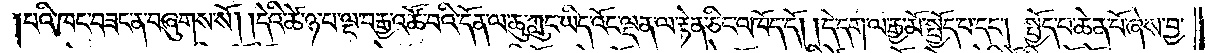པའི་ཁང་བཟང་ན་བཞུགས་སོ། །དེའི་ཚེ་ཉ་པ་ལྔ་བརྒྱ་འཚོ་བའི་དོན་ལ་ཆུ་ཀླུང་ཡིད་འོང་ལྡན་ལ་རྟེན་ཅིང་འཁོད་དོ། །དེ་དག་ལ་རྒྱ་མོ་སྤྱོད་པ་དང༌། སྤྱོད་པ་ཆེན་པོ་ཞེས་བྱ་
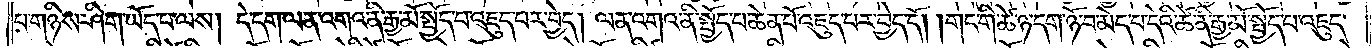བ་གཉིས་ཤིག་ཡོད་པ་ལས། དེ་དག་ལན་འགའ་ནི་རྒྱ་མོ་སྤྱོད་པ་འཇུད་པར་བྱེད། ལན་འགའ་ནི་སྤྱོད་པ་ཆེན་པོ་འཇུད་པར་བྱེད་དོ། །གང་གི་ཚེ་ཉ་དག་ཉོ་བ་མེད་པ་དེའི་ཚེ་ནི་རྒྱ་མོ་སྤྱོད་པ་འཇུད་
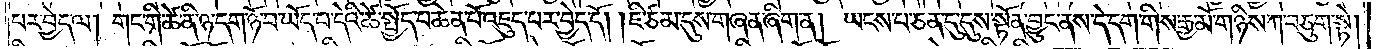པར་བྱེད་ལ། གང་གི་ཚེ་ནི་ཉ་དག་ཉོ་བ་ཡོད་པ་དེའི་ཚེ་སྤྱོད་པ་ཆེན་པོ་འཇུད་པར་བྱེད་དོ། །ཇི་ཙམ་དུས་གཞན་ཞིག་ན། ཡངས་པ་ཅན་དུ་དུས་སྟོན་བྱུང་ནས་དེ་དག་གིས་རྒྱ་མོ་གཉིས་ཀ་བཅུག་སྟེ།
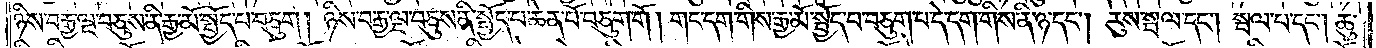ཉིས་བརྒྱ་ལྔ་བཅུས་ནི་རྒྱ་མོ་སྤྱོད་པ་བཅུག །ཉིས་བརྒྱ་ལྔ་བཅུས་ནི་སྤྱོད་པ་ཆེན་པོ་བཅུག་གོ །གང་དག་གིས་རྒྱ་མོ་སྤྱོད་པ་བཅུག་པ་དེ་དག་གིས་ནི་ཉ་དང༌། རུས་སྦལ་དང༌། སྦལ་པ་དང༌། ཆུ་
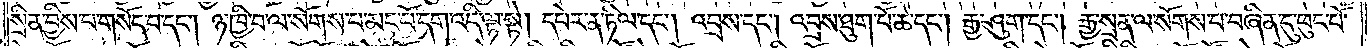སྲིན་བྱིས་པ་གསོད་པ་དང༌། ཉ་ཁྱི་བ་ལ་སོགས་པ་མང་པོ་དག་འདི་ལྟ་སྟེ། དཔེར་ན་ཏིལ་དང༌། འབྲས་དང༌། འབྲས་བུ་ཐུག་པོ་ཆེ་དང༌། རྒྱ་ཤུག་དང༌། རྒྱ་སྲན་ལ་སོགས་པ་བཞིན་དུ་ཕུང་པོ་
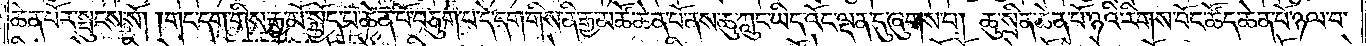ཆེན་པོར་སྤུངས་སོ། །གང་དག་གིས་རྒྱ་མོ་སྤྱོད་པ་ཆེན་པོ་བཅུག་པ་དེ་དག་གིས་ནི་རྒྱ་མཚོ་ཆེན་པོ་ནས་ཆུ་ཀླུང་ཡིད་འོང་ལྡན་དུ་ཞུགས་པ། ཆུ་སྲིན་ཆེན་པོ་ཉའི་རིགས་བོང་ཚོད་ཆེན་པོ་ཉལ་བ་
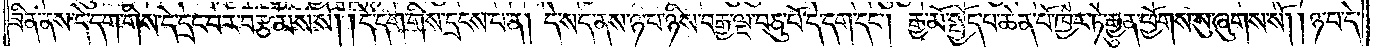ཟིན་ནས་དེ་དག་གིས་དེ་དྲང་བར་བརྩམས་སོ། །དེ་དག་གིས་དྲངས་པ་ན། དེ་སད་ནས་ཉ་པ་ཉིས་བརྒྱ་ལྔ་བཅུ་པོ་དེ་དག་དང༌། རྒྱ་མོ་སྤྱོད་པ་ཆེན་པོ་ཁྱེར་ཏེ་རྒྱུན་ཕྱོགས་སུ་ཞུགས་སོ། །ཉ་པ་དེ་
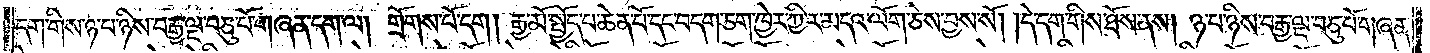དག་གིས་ཉ་པ་ཉིས་བརྒྱ་ལྔ་བཅུ་པོ་གཞན་དག་ལ། གྲོགས་པོ་དག །རྒྱ་མོ་སྤྱོད་པ་ཆེན་པོ་དང་བདག་ཅག་ཁྱེར་གྱི་ར་མདའ་ལོག་ཅེས་བྱས་སོ། །དེ་དག་གིས་ཐོས་ནས། ཉ་པ་ཉིས་བརྒྱ་ལྔ་བཅུ་པོ་གཞན་
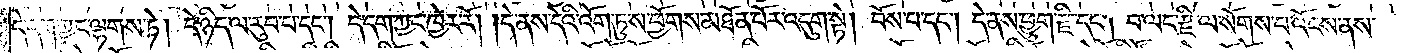དེ་དག་ཀྱང་ལྷགས་ཏེ། དེ་ཉིད་ལ་རུབ་པ་དང༌། དེ་དག་ཀྱང་ཁྱེར་རོ། །དེ་ནས་དེའི་འོག་ཏུ་ས་ཕྱོགས་མཐོན་པོར་འདུག་སྟེ། བོས་པ་དང༌། དེ་ནས་ཕྱུག་རྫི་དང༌། བ་ལང་རྫི་ལ་སོགས་པ་འོངས་ནས་
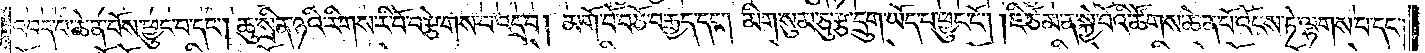འབད་པ་ཆེན་པོས་ཕྱུང་བ་དང༌། ཆུ་སྲིན་ཉའི་རིགས་རི་བོ་བརྩེགས་པ་འདྲ་བ། མགོ་བོ་བཅོ་བརྒྱད་དང༌། མིག་སུམ་ཅུ་རྩ་དྲུག་ཡོད་པ་ཕྱུང་ངོ༌། །ཇི་ཙམ་ན་སྐྱེ་བོའི་ཚོགས་ཆེན་པོ་འོངས་ཏེ་ལྷགས་པ་དང༌།
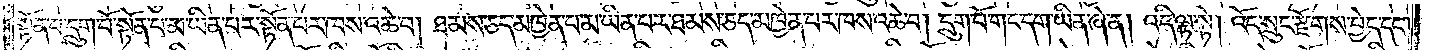སྟོན་པ་དྲུག་པོ་སྟོན་པ་མ་ཡིན་པར་སྟོན་པར་ཁས་འཆེ་བ། ཐམས་ཅད་མཁྱེན་པ་མ་ཡིན་པར་ཐམས་ཅད་མཁྱེན་པར་ཁས་འཆེ་བ། དྲུག་པོ་གང་དག་ཡིན་ཞེ་ན། འདི་ལྟ་སྟེ། འོད་སྲུང་རྫོགས་བྱེད་དང༌།
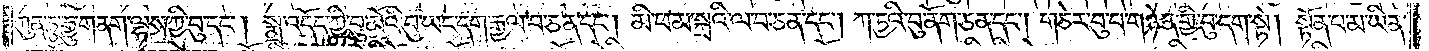ཀུན་ཏུ་རྒྱུ་གནག་ལྷས་ཀྱི་བུ་དང༌། སྨྲ་འདོད་ཀྱི་བུ་མོའི་བུ་ཡང་དག་རྒྱལ་བ་ཅན་དང༌། མི་ཕམ་སྐྲའི་ལ་བ་ཅན་དང༌། ཀ་ཏྱའི་བུ་ནོག་ཅན་དང༌། གཅེར་བུ་པ་གཉེན་གྱི་བུ་དག་སྟེ། སྟོན་པ་མ་ཡིན་
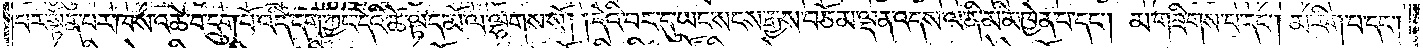པར་སྟོན་པར་ཁས་འཆེ་བ་དྲུག་པོ་འདི་དག་ཀྱང་དེའི་ཚེ་ལྟད་མོ་ལ་ལྷགས་སོ། །དེའི་བར་དུ་ཡང་སངས་རྒྱས་བཅོམ་ལྡན་འདས་ལ་ནི་མི་མཁྱེན་པ་དང༌། མ་གཟིགས་པ་དང༌། མ་རིག་པ་དང༌།
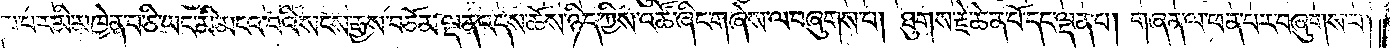རྣམ་པར་མི་མཁྱེན་པ་ཅི་ཡང་མི་མངའ་བའི་སངས་རྒྱས་བཅོམ་ལྡན་འདས་ཆོས་ཉིད་ཀྱིས་འཚོ་ཞིང་གཞེས་ལ་བཞུགས་པ། ཐུགས་རྗེ་ཆེན་པོ་དང་ལྡན་པ། གཞན་ལ་ཕན་པར་བཞུགས་པ།
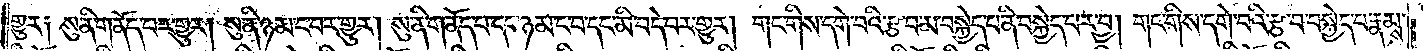གྱུར༑ སུ་ནི་གནོད་པར་གྱུར། སུ་ནི་ཉམ་ང་བར་གྱུར། སུ་ནི་གནོད་པ་དང་ཉམ་ང་བ་དང་མི་བདེ་བར་གྱུར། གང་གིས་དགེ་བའི་རྩ་བ་མ་བསྐྱེད་པ་ནི་བསྐྱེད་པར་བྱ། གང་གིས་དགེ་བའི་རྩ་བ་བསྐྱེད་པ་རྣམས་
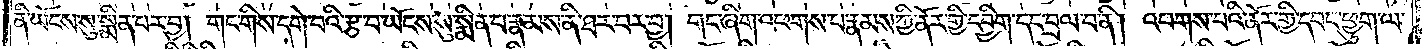ནི་ཡོངས་སུ་སྨིན་པར་བྱ། གང་གིས་དགེ་བའི་རྩ་བ་ཡོངས་སུ་སྨིན་པ་རྣམས་ནི་ཐར་བར་བྱ། གང་ཞིག་འཕགས་པ་རྣམས་ཀྱི་ནོར་གྱི་དབྱིག་དང་བྲལ་བ་ནི། འཕགས་པའི་ནོར་གྱི་དབང་ཕྱུག་ལ་
